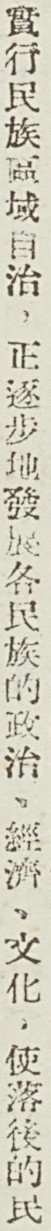實行民族區域自治，正逐步地發展各民族的政治、經濟、文化，使落後的民
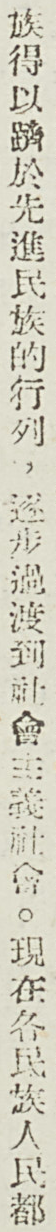族得以躋於先進民族的行列，逐步過渡到社會主義社會。現在各民族人民都
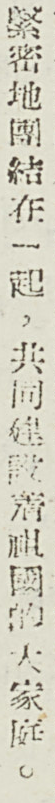緊密地團結在一起，共同建設着祖國的大家庭。
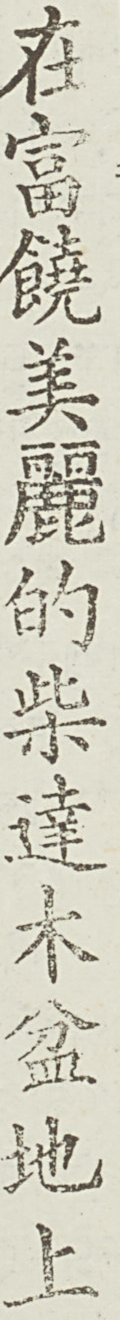在富饒美麗的柴達木盆地上
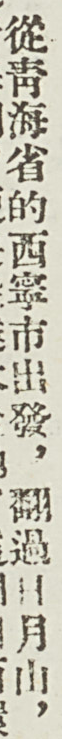從靑海省的西寧市出發，翻過日月山，
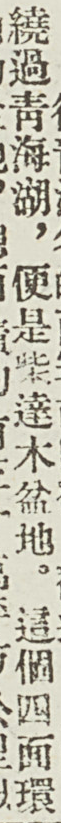繞過靑海湖，便是柴達木盆地。這個四面環
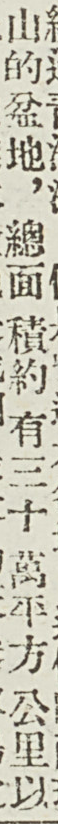山的盆地，總面積約有三十萬平方公里以
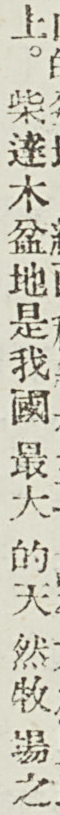上。柴達木盆地是我國最大的天然牧場之
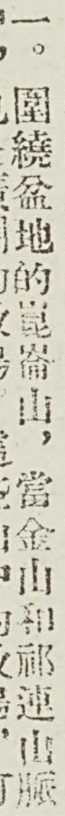一。圍繞盆地的崑崙山，當金山和祁連山脈
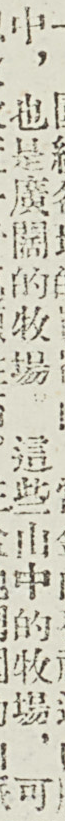中，也是廣闊的牧場。這些山中的牧場，可
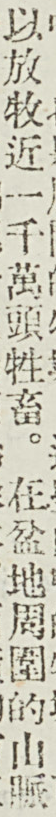以放牧近一千萬頭牲畜。在盆地周圍的山脈
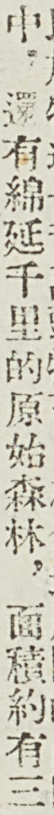中，還有綿延千里的原始森林，面積約有三
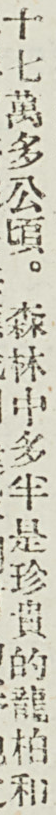十七萬多公頃。森林中多半是珍貴的龍柏和
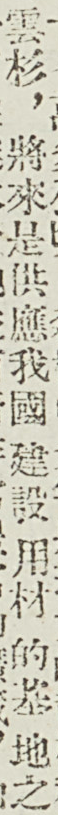雲杉，將來是供應我國建設用材的基地之
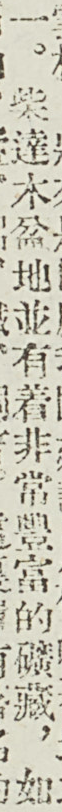一。柴達木盆地並有着非常豐富的礦藏，如
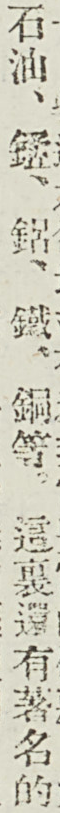石油、錳、鋁、鐵、銅等。這裏還有著名的
